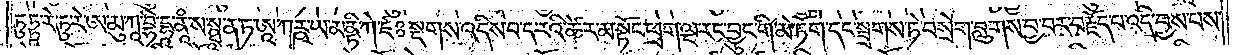ཏུ་ཏྟཱ་རེ་ཏུ་རེ་ཨ་མུ་ཀཱ་བྷི་དྷཱ་ནཱཾ་ས་སྠཱ་ན་ཏ་ཨཱ་ཀཪྵ་ཡ་མནྟི་ཀེ་ཛཿ སྔགས་འདིས་བ་ད་རའི་ཚེར་མ་སྟོང་ཕྲག་ལྔ་རང་བྱུང་གི་མེ་ཏོག་དང་སྦྲགས་ཏེ་བསྲེག་བླུགས་བྱ་བར་བརྗོད་པ་འདི་བྱས་པས་
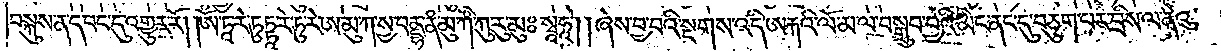བསྐུས་ནད་བང་དུ་འགྱུར་རོ། །ཨོཾ་ཏཱ་རེ་ཏུཏྟཱ་རེ་ཏུ་རེ་ཨ་མུ་ཀ་སྱ་བནྡྷ་ནཾ་མུ་ཀཾ་ཀུ་རུ་མཿ སྭཱཧཱ། །ཞེས་བྱ་བའི་སྔགས་འདི་ཨརྐའི་ལོ་མ་ལ་བསྒྲུབ་བྱའི་མིང་ནང་དུ་བཅུག་པར་བྲིས་ལ་ནེའུ་
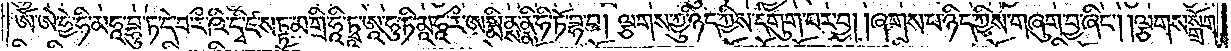ཨོ་ཨེ་ཧྱེ་ཧི་མཧཱ་བྷུ་ཏ་དེ་བ་རྀ་ཥི་དྭི་ཛ་སཏྟ་མ་གྲི་ཧཱི་ཏྭཱ་ཨཱ་ཧུ་ཏི་མཱ་ཧཱ་རྀ་ཨསྨིནྶ་ནྣི་ཧི་ཏོ་བྷ་བ། ལྕགས་ཀྱུ་ཉིད་ཀྱིས་དགུག་པར་བྱ། །ཞགས་པ་ཉིད་ཀྱིས་གཞུག་བྱ་ཞིང༌། །ལྕགས་སྒྲོག་
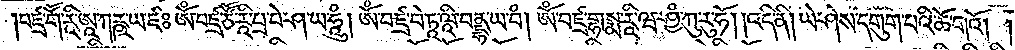བཛྲ་གཽ་རཱི་ཨཱ་ཀཪྵ་ཡ་ཛཿཨོཾ་བཛྲ་ཙཽ་རཱི་པྲ་པེ་ཤ་ཡ་ཧཱུཾ། ཨོཾ་བཛྲ་པེ་ཏཱ་ལཱི་བནྡྷ་ཡ་བཾ། ཨོཾ་བཛྲ་གྷསྨ་རཱི་ཝ་ཤྱཾ་ཀུ་རུ་ཧོ། །འདི་ནི། ཡེ་ཤེས་དགུག་པའི་ཆོ་གའོ། །
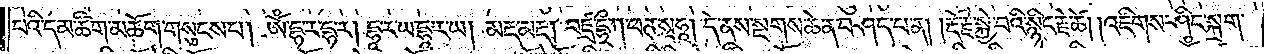པའི་དམ་ཚིག་མཆོག་གསུངས་པ། ཨོཾ་དྷ་ར་དྷ་ར། དྷཱ་ར་ཡ་དྷཱ་ར་ཡ། མརྡ་མརྡ། བཛྲ་དྷྲྀ་ཀ་ཕཊ་སྭཱཧཱ། དེ་ནས་སྔགས་ཆེན་བཤད་པ་ན། །རྡོ་རྗེ་སྐྱེ་བའི་སྙིང་རྗེ་ཚེ། །འཇིགས་ཤིང་སྐྲག་
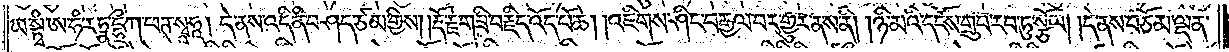ཡ་སྟྭཾ་ཨ་ཧཾ་རཏྣ་དྷྲྀ་ཀ་ཕཊ་སྭཱཧཱ། དེ་ནས་འདི་ནི་བཤད་ཙམ་གྱིས། །རྡོ་རྗེ་གཟི་བརྗིད་འོད་པོ་ཆེ། །འཇིགས་ཤིང་བརྒྱལ་བར་གྱུར་ནས་ནི། །ཉི་མའི་དངོས་གྲུབ་རབ་ཏུ་སྩོལ། །དེ་ནས་བཅོམ་ལྡན་
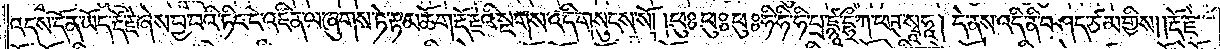འདས་དོན་ཡོད་རྡོ་རྗེ་ཞེས་བྱ་བའི་ཏིང་ངེ་འཛིན་ལ་ཞུགས་ཏེ་རྟ་མཆོག་རྡོ་རྗེའི་སྔགས་འདི་གསུངས་སོ། །ཕུཿཕུཿ ཕུཿ ཧི་ཧི་ཧི་པྲ་ཛྙཱ་དྷྲྀ་ཀ་ཕཊ་སྭཱཧཱ། དེ་ནས་འདི་ནི་བཤད་ཙམ་གྱིས། །རྡོ་རྗེ་
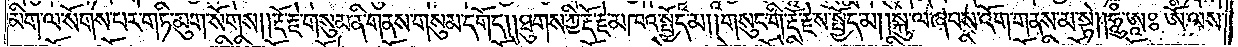མིག་ལ་སོགས་པར་གཏི་མུག་སོགས། །རྡོ་རྗེ་གསུམ་ནི་གནས་གསུམ་དགོད། །ཐུགས་ཀྱི་རྡོ་རྗེ་མཁའ་སྤྱོད་མ། །གསུང་གི་རྡོ་རྗེས་སྤྱོད་མ། །སྐུ་ལ་ཞབས་འོག་གནས་མ་སྟེ། །ཧཱུཾ་ཨཱཿཨོཾ་ལས་
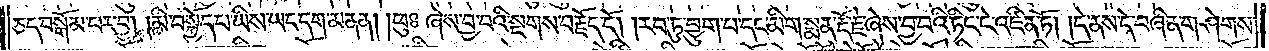ཅད་བསྒོམ་པར་བྱ། །མི་བསྐྱོད་པ་ཡིས་ཡང་དག་མནན། །ཕུཿ ཞེས་བྱ་བའི་སྔགས་བརྗོད་དོ། །རབ་ཏུ་བྱུག་པ་དང་མིག་སྨན་རྡོ་རྗེ་ཞེས་བྱ་བའི་ཏིང་ངེ་འཛིན་ཏོ། །དེ་ནས་དེ་བཞིན་གཤེགས་
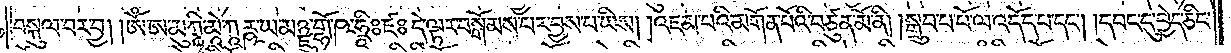བསྐུལ་བར་བྱ། །ཨོཾ་ཨ་མུ་ཀཱི་མཱེ་ཀཱཪྵ་ཡ་མཉྫུ་གྷོ་ཥ་ཧྲཱིཿཛཿདེ་ལྟར་བསྒོམས་པར་བྱས་པ་ཡིས། །འཇམ་པའི་མགོན་པོའི་བཙུན་མོ་ནི། །སྒྲུབ་པ་པོ་ལ་འདོད་པ་དང༌། དབང་དུ་བྱེད་ཅིང་
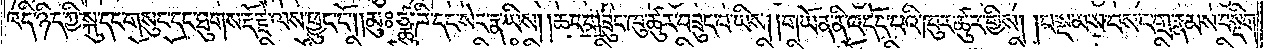འདི་ཉིད་ཀྱི་སྐུ་དང་གསུང་དང་ཐུགས་རྡོ་རྗེ་ལས་ཕྱུང་ངོ༌། །མུཿཙྪུ་ཌི་དང་སེར་རྣ་ཡིས། །ཆང་གཟུང་ཁུ་ཚུར་བཟུང་བ་ཡིས། །གཡོན་ནི་འདོད་པའི་ཁུར་ཚུར་གྱིས། །བསྡམས་བསང་གྲ་རྣམས་བསྡིག་
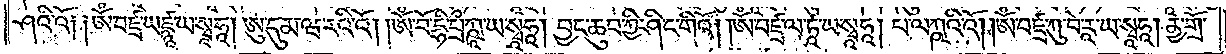ཤའིའོ། །ཨོཾ་བཛྲ་ཡཛྙཱ་ཡ་སྭཱཧཱ། ཨུ་དུམ་ཝ་རའི་འོ། །ཨོཾ་བོ་དྷི་པྲྀཀྵཱ་ཡ་སྭཱཧཱ། བྱང་ཆུབ་ཀྱི་ཤིང་གིའོ། །ཨོཾ་བཛྲ་ལ་ཏཱ་ཡ་སྭཱཧཱ། པ་ལཀྵའིའོ། །ཨོཾ་བཛྲ་ཀུ་བེ་རཱ་ཡ་སྭཱཧཱ། ནྱ་གྲོ་
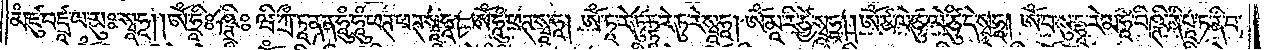མཾ་ཛུ་བཛྲཱ་ཡ་མུཿ སྭཱཧཱ། ཨོཾ་ཧྲཱིཿཥྚཱིཿཝི་ཀྲྀ་ཏཱ་ནན་ཧཱུཾ་ཧཱུཾ་ཕཊ་ཕཊ་སྭཱཧཱ། ཨོཾ་ཧཱུཾ་ཕཊ་སྭཱཧཱ། ཨོཾ་ཏཱ་རེ་ཏུཏྟ་རེ་ཏུ་རེ་སྭཱཧཱ། ཨོཾ་མཱ་རི་ཙྱེ་སྭཱཧཱ། ཨོཾ་ཙ་ལེ་ཙུ་ལེ་ཙུཾ་དེ་སྭཱཧཱ། ཨོཾ་བ་སུ་དྷཱ་རེ་མཧཱ་བིཥྚི་ནི་པཱ་ཏ་ནི་བ་
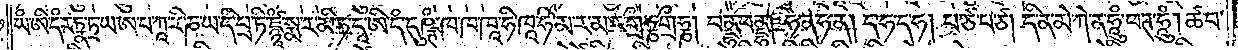ཡཾ་ཨི་དཾ་རཏྣ་ཏྲ་ཡ་ཨ་པ་ཀཱ་རི་ཎ་ཡ་དི་པྲ་ཏི་ཛྙཱཾ་སྨ་ར་མི་ཏ་དཱ་ཨི་དཾ་དུཥྚཾ་ཁ་ཁ་ཁཱ་ཧི་ཁཱ་ཧི་མ་ར་མ་ར་གྲྀཧྞ་གྲྀཧྞ། བནྡྷ་བནྡྷ། ཧ་ན་ཧ་ན། ད་ཧ་ད་ཧ། པ་ཙ་པ་ཙ། དི་ན་མེ་ཀེ་ན་ཧཱུཾ་ཕཊ་ཧཱུཾ། ཚ་བ་
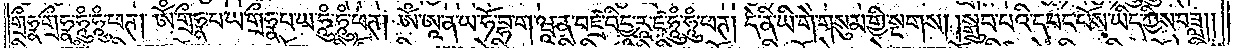གྲྀཧྣ་གྲྀཧྣ་ཧཱུཾ་ཧཱུཾ་ཕཊ། ཨོཾ་གྲྀཧྣ་པ་ཡ་གྲྀཧྣ་པ་ཡ་ཧཱུཾ་ཧཱུཾ་ཕཊ། ཨོཾ་ཨཱ་ན་ཡ་ཧོ་བྷ་ག་ཝཱན་བཛྲ་བིདྱ་རཱ་ཛ་ཧཱུཾ་ཧཱུཾ་ཕཊ། དེ་ནི་ཡི་གེ་གསུམ་གྱི་སྔགས། །སྒྲུབ་པའི་དབང་པོས་ཡིད་ཀྱིས་བཟླ༎
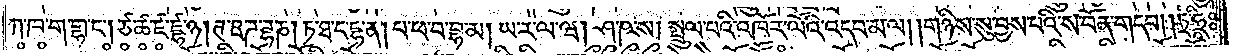ཀ་ཁ་ག་གྷ་ང༌། །ཙ་ཚ་ཛ་ཛྷ་ཉ། ཊ་ཋ་ཌ་ཌྷ་ཎ། ཏ་ཐ་ད་དྷ་ན། པ་ཕ་བ་བྷ་མ། ཡ་ར་ལ་ཝ། ཤ་ཥ་ས། སྤྲུལ་པའི་འཁོར་ལོའི་འདབ་མ་ལ། །གཉིས་སུ་བྱས་པའི་ས་བོན་གདབ། ཏྲཾ་ཧྲཱིཿ
